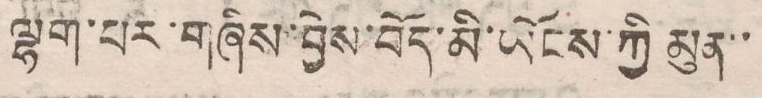ལྷག་པར་གཞིས་བྱེས་བོད་མ་ཡོངས་ཀྱི་མུན་་
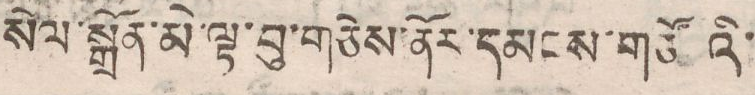སེལ་སྒྲོན་མེ་ལྟ་བུའི་གཅེས་ནོར་དམངས་གཙོ འི་
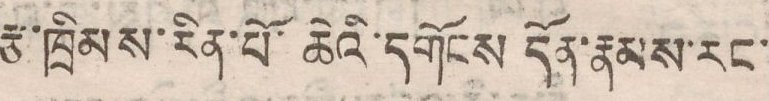རྩ་ཁྲིམས་རིན་པོ་ཆེའི་དགོངས དོན་རྣམས་རང་
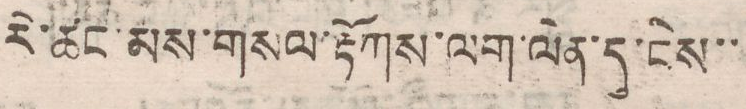རེ་ཚང་མས་གསལ་རྟོགས་ལག་ལེན་དུ་ངེས་་
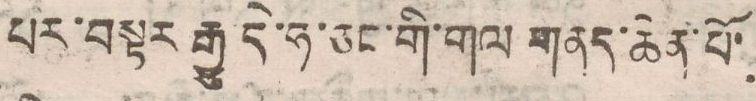པར་བསྟར རྒྱུ དེ་ཧ་ཅང་གི་གལ གནད་ཆེན་པོ་
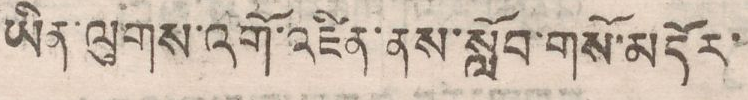ཡིན་ལུགས་འགོ་འཛིན་ནས་སློབ་གསོ་མདོར་
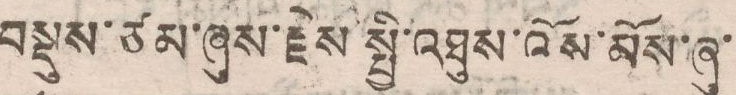བསྡུས་ཙམ་ཞུས་རྗེས སྤྱི་འཐུས་འོས་མོས་ཞུ་
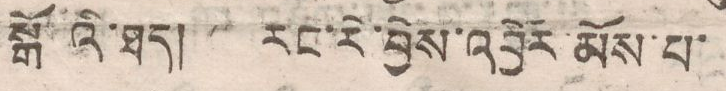སྒོ འི་ཐད། རང་རེ་བྱེས་འབྱོར མོས་པ་
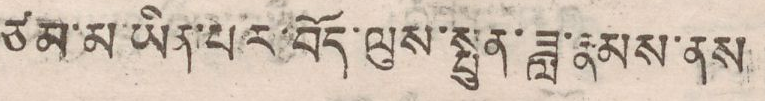ཙམ་མ་ཡིན་པར་བོད་ལུས་སྤུན་ཟླ་རྣམས་ནས
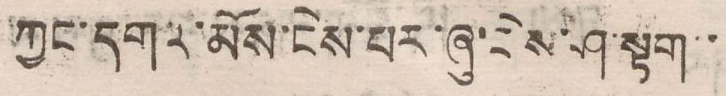ཀྱང་དགའ་མོས་ངེས་པར་ཞུ་ངེས་ཤ་སྟག་་
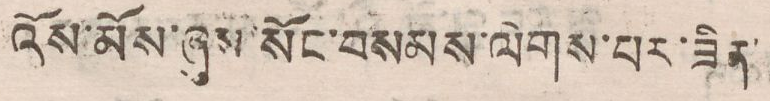འོས་མོས་ཞུས་སོང་བསམས་ལེགས་པར་ཟིན་
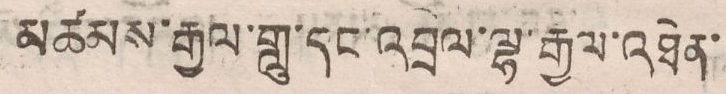མཚམས་རྒྱལ་གླུ་དང་འབྲལ་ལྷ་རྒྱལ་འཐེན་
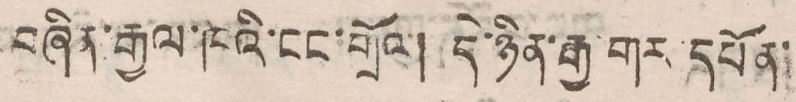བཞིན་རྒྱལ་ཁའི་ངང་གྲོལ། དེ་ཉིན་རྒྱ་གར དཔོན་
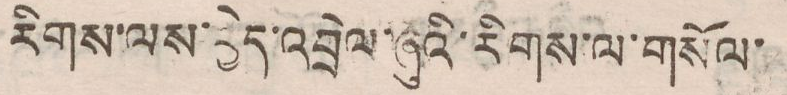རིགས་ལས་བྱེད་འབྲེལ་ཞུའི་རིགས་ལ་གསོལ་
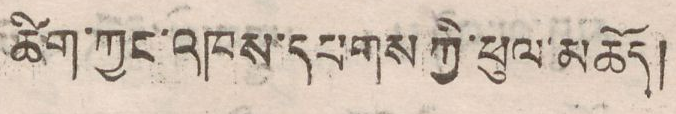ཚིག་ཀྱང་འཁས་དཔགས་ཀྱི་ཕུལ་མཆོད།
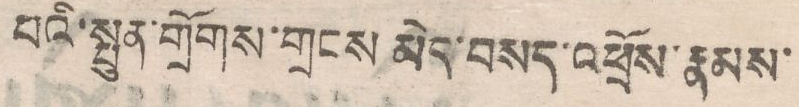པའི་སྤུན་གྲོགས་གྲངས མེད་བསད་འཕྲོས་རྣམས་
